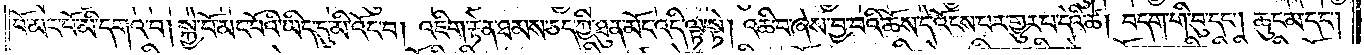བོ་མང་པོ་མི་དགའ་བ། སྐྱེ་བོ་མང་པོའི་ཡིད་དུ་མི་འོང་བ། འཇིག་རྟེན་ཐམས་ཅད་ཀྱི་ཐུན་མོང་འདི་ལྟ་སྟེ། འཆི་བ་ཞེས་བྱ་བའི་ཆོས་དེ་འོངས་པར་གྱུར་པ་དེའི་ཚེ། བདག་གི་བུ་དང༌། ཆུང་མ་དང༌།
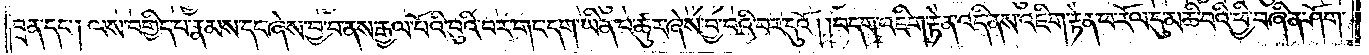བྲན་དང༌། ལས་བགྱིད་པ་རྣམས་དང་ཞེས་བྱ་བ་ནས་རྒྱལ་པོའི་བུའི་བར་གང་དག་ཡིན་པ་ཚུར་ཞེས་བྱ་བའི་བར་དུའོ། །བདག་འཇིག་རྟེན་འདི་ནས་འཇིག་རྟེན་ཕ་རོལ་དུ་མཆི་བའི་ཕྱི་བཞིན་ཤོག་
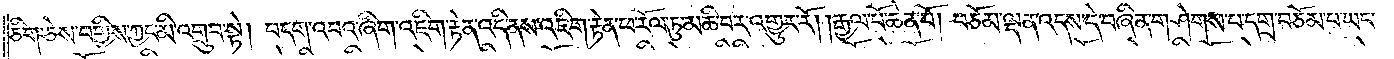ཅིག་ཅེས་བགྱིས་ཀྱང་མི་འགྲུབ་སྟེ། བདག་འབའ་ཞིག་འཇིག་རྟེན་འདི་ནས་འཇིག་རྟེན་ཕ་རོལ་ཏུ་མཆི་བར་འགྱུར་རོ། །རྒྱལ་པོ་ཆེན་པོ། བཅོམ་ལྡན་འདས་དེ་བཞིན་གཤེགས་པ་དགྲ་བཅོམ་པ་ཡང་
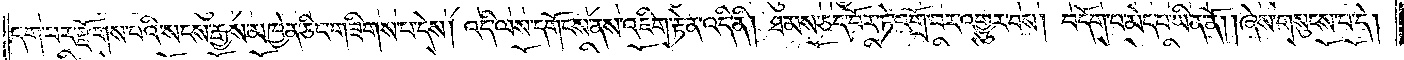དག་པར་རྫོགས་པའི་སངས་རྒྱས་མཁྱེན་ཅིང་གཟིགས་པ་དེས། འདི་ལས་དགོངས་ནས་འཇིག་རྟེན་འདི་ནི། ཐམས་ཅད་བོར་ཏེ་འགྲོ་བར་འགྱུར་བས། བདོག་པ་མེད་པ་ཡིན་ནོ། །ཞེས་གསུངས་པ་དེ།
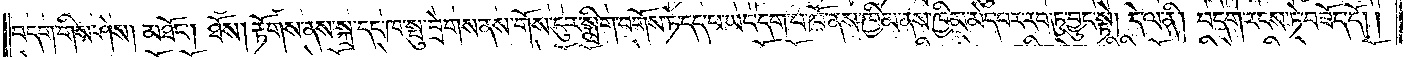བདག་གིས་ཤེས། མཐོང༌། ཐོས། རྟོགས་ནས་སྐྲ་དང་ཁ་སྤུ་བྲེགས་ནས་གོས་ངུར་སྨྲིག་བགོས་ཏེ་དད་པ་ཡང་དག་པ་ཁོ་ནས་ཁྱིམ་ནས་ཁྱིམ་མེད་པར་རབ་ཏུ་བྱུང་སྟེ། དེ་ལ་ནི། བདག་རངས་ཏེ་བཟོད་དོ། །
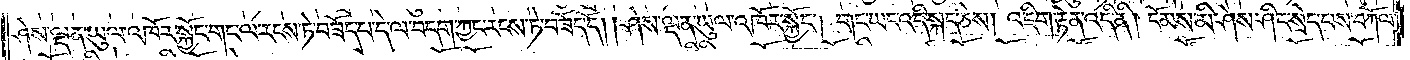ཤེས་ལྡན་ཡུལ་འཁོར་སྐྱོང་གང་ལ་རངས་ཏེ་བཟོད་པ་དེ་ལ་བདག་ཀྱང་རངས་ཏེ་བཟོད་དོ། །ཤེས་ལྡན་ཡུལ་འཁོར་སྐྱོང༌། གང་ཡང་འདི་སྐད་ཅེས། འཇིག་རྟེན་འདི་ནི། ངོམས་མི་ཤེས་ཤིང་སྲེད་པས་བཀོལ་
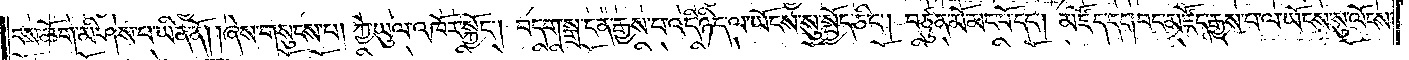བས་ཆོག་མི་ཤེས་པ་ཡིན་ནོ། །ཞེས་གསུངས་པ། ཀྱེ་ཡུལ་འཁོར་སྐྱོང༌། བདག་སྒྲ་ངན་རྒྱས་པའི་འདི་ཉིད་ལ་ཡོངས་སུ་སྤྱོད་ཅིང༌། བཙུན་མོ་མང་པོ་དང༌། མཛོད་དང༌། བང་མཛོད་རྒྱས་པ་ལ་ཡོངས་སུ་ལོངས་
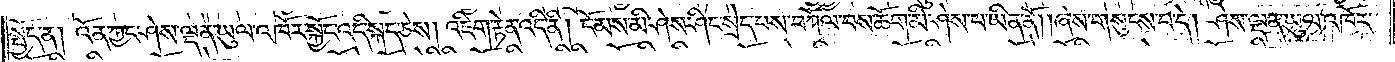སྤྱོད་ན། འོན་ཀྱང་ཤེས་ལྡན་ཡུལ་འཁོར་སྐྱོང་འདི་སྐད་ཅེས། འཇིག་རྟེན་འདི་ནི། ངོམས་མི་ཤེས་ཤིང་སྲེད་པས་བཀོལ་བས་ཆོག་མི་ཤེས་པ་ཡིན་ནོ། །ཞེས་གསུངས་པ་དེ། ཤེས་ལྡན་ཡུལ་འཁོར་
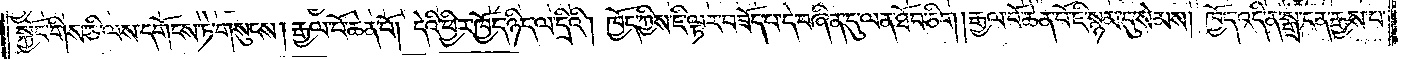སྐྱོང་གིས་ཅི་ལས་དགོངས་ཏེ་གསུངས། རྒྱལ་པོ་ཆེན་པོ། དེའི་ཕྱིར་ཁྱོད་ཉིད་ལ་དྲིའི། ཁྱོད་ཀྱིས་ཇི་ལྟར་བཟོད་པ་དེ་བཞིན་དུ་ལན་ཐོབ་ཅིག །རྒྱལ་པོ་ཆེན་པོ་ཇི་སྙམ་དུ་སེམས། ཁྱོད་འདི་ན་སྒྲ་ངན་རྒྱས་པ་
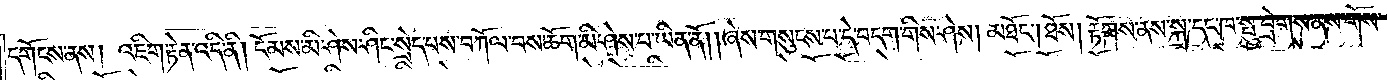དགོངས་ནས། འཇིག་རྟེན་འདི་ནི། ངོམས་མི་ཤེས་ཤིང་སྲེད་པས་བཀོལ་བས་ཆོག་མི་ཤེས་པ་ཡིན་ནོ། །ཞེས་གསུངས་པ་དེ་བདག་གིས་ཤེས། མཐོང༌། ཐོས། རྟོགས་ནས་སྐྲ་དང་ཁ་སྤུ་བྲེགས་ནས་གོས་
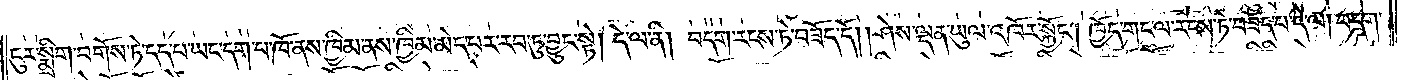ངུར་སྨྲིག་བགོས་ཏེ་དད་པ་ཡང་དག་པ་ཁོ་ནས་ཁྱིམ་ནས་ཁྱིམ་མེད་པར་རབ་ཏུ་བྱུང་སྟེ། དེ་ལ་ནི། བདག་རངས་ཏེ་བཟོད་དོ། །ཤེས་ལྡན་ཡུལ་འཁོར་སྐྱོང༌། ཁྱོད་གང་ལ་རངས་ཏེ་བཟོད་པ་དེ་ལ། བདག་
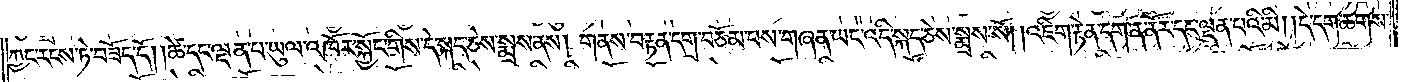ཀྱང་རངས་ཏེ་བཟོད་དོ། །ཚེ་དང་ལྡན་པ་ཡུལ་འཁོར་སྐྱོང་གིས་དེ་སྐད་ཅེས་སྨྲས་ནས། གནས་བརྟན་དགྲ་བཅོམ་པས་གཞན་ཡང་འདི་སྐད་ཅེས་སྨྲས་སོ། །འཇིག་རྟེན་དག་ན་ནོར་དང་ལྡན་པའི་མི། །དེ་དག་ཆགས་
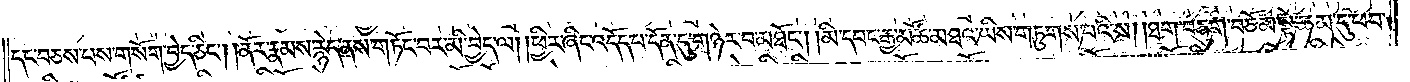དང་བཅས་པས་གསོག་བྱེད་ཅིང༌། །ནོར་རྣམས་རྙེད་ནས་གཏོང་བར་མི་བྱེད་ལ། །ཕྱིར་ཞིང་འདོད་པ་དོན་དུ་གཉེར་བ་མཐོང༌། །མི་དབང་རྒྱ་མཚོ་མཐའ་ཡིས་གཏུགས་པའི་ས། །ཐག་བཅུག་བཅོམ་སྟེ་ཆམ་དུ་ཕབ་
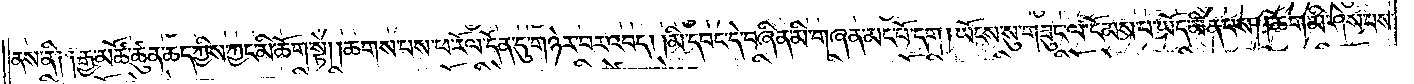ནས་ནི། །རྒྱ་མཚོ་ཚུན་ཆད་ཀྱིས་ཀྱང་མི་ཆོག་སྟེ། །ཆགས་པས་ཕ་རོལ་དོན་དུ་གཉེར་བར་འབད། །མི་དབང་དེ་བཞིན་མི་གཞན་མང་པོ་དག །ཡོངས་སུ་གཟུང་ལ་ངོམས་པ་ཡོད་མིན་པས། །ཆོག་མི་ཤེས་པས་
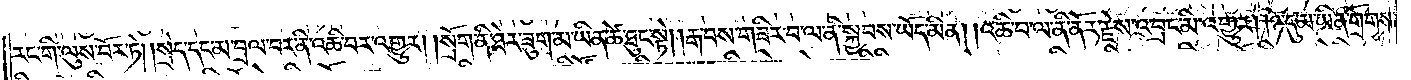རང་གི་ལུས་པོར་ཏེ། །སྲེད་དང་མ་བྲལ་བར་ནི་འཆི་བར་འགྱུར། །སྲོག་ནི་ཐེར་ཟུག་མ་ཡིན་ཚེ་ཐུང་སྟེ། །རྒ་བས་གཟིར་བ་ལ་ནི་སྐྱབས་ཡོད་མིན། །འཆི་བ་ལ་ནི་ནོར་རྗེས་འབྲང་མི་འགྱུར། །ཉེ་དུ་མ་ཡིན་གྲོགས་
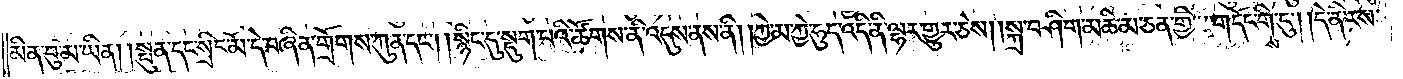མིན་བུ་མ་ཡིན། །སྤུན་དང་སྲིང་མོ་དེ་བཞིན་གྲོགས་ཀུན་དང༌། །སྙིང་དུ་སྡུག་པའི་ཚོགས་ནི་འདུས་ནས་ནི། །ཀྱེ་མ་ཀྱེ་ཧུད་འདི་ནི་ལྷར་གྱུར་ཅེས། །སྐྲ་བཤིག་མཆི་མ་ཅན་གྱི་གདོང་གིས་ངུ༌། །དེ་ནི་རས་
